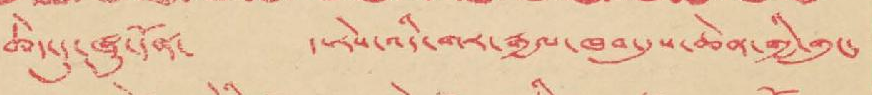ཆེད་དུ་ཞི་དོན་ ད་རེས་འདི་གར་རྒྱལ་ཁབ་དུས་ཆེན་གྱི་གུང་
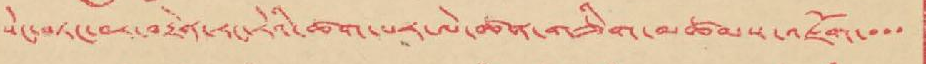སེང་བཏང་བར་བརྟེན་རང་རེའི་ཚག་པར་ལེ་ཚན་གཅིག་མཚམས་འཇོག་་་་
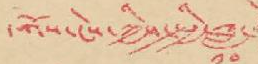དགོས་ངེས་ཀྱིས་སྤྱི་ཟླ་
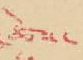ཚེས་
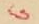༦
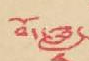བོད་ཟླ་
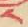༨
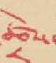ཚེས་
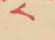༨
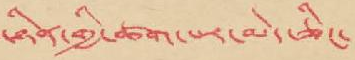ཉིན་གྱི་ཚག་པར་མེད་ཅིང་
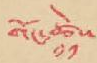གོང་ཚེས་
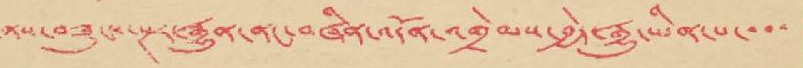ནས་བཟུངས་སྔར་རྒྱུན་ནང་བཞིན་འདོན་འགྲེམས་བྱེད་རྒྱུ་ཡིན་པ་་་་
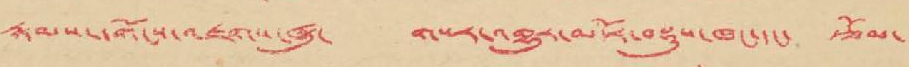རྣམས་གོངས་འཇགས་ཞུ་ གསར་འགྱུར་མདོར་བསྡུས་ཁང་དང་ རྩོམ་
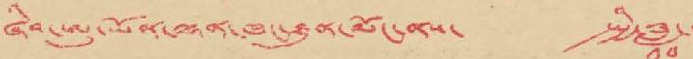ཞིབ་ཨུ་ཡོན་ལྷན་ཁང་ཐུན་མོང་ནས་ སྤྱི་ཟླ་
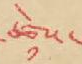ཚེས་
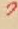༡
